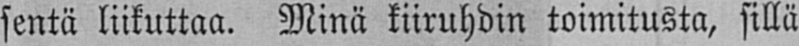sentä liikuttaa. Minä kiiruhdin toimitusta, sillä
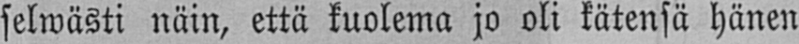selwästi näin, että kuolema jo oli kätensä hänen
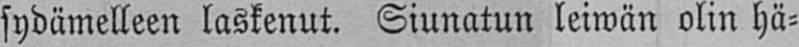sydämelleen laskenut. Siunatun leiwän olin hä-
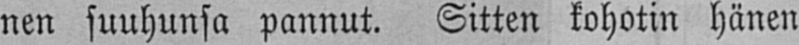nen suuhunsa pannut. Sitten kohotin hänen
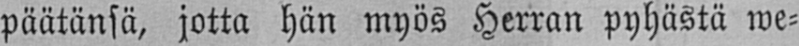päätänsä, jotta hän myös Herran pyhästä we-
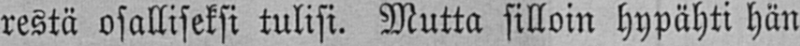restä osalliseksi tulisi. Mutta silloin hypähti hän
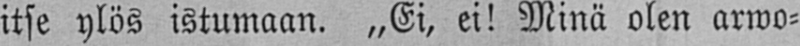itse ylös istumaan. „Ei, ei! Minä olen arwo-
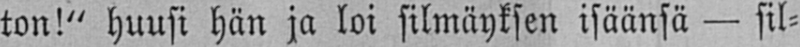ton!" huusi hän ja loi silmäyksen isäänsä — sil-
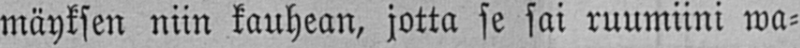mäyksen niin kauhean, jotta se sai ruumiini wa-
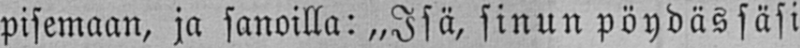pisemaan, ja sanoilla: „Isä, sinun pöydässäsi
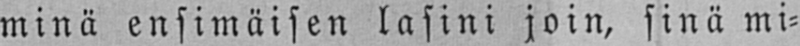minä ensimäisen lasini join, sinä mi-
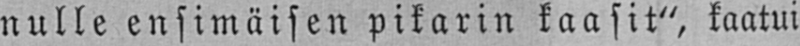nulle ensimäisen pikarin kaasit", kaatui
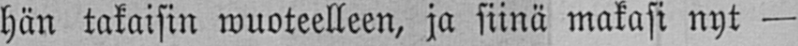hän takaisin wuoteelleen, ja siinä makasi nyt —
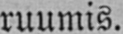ruumis.
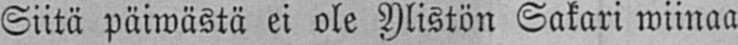Siitä päiwästä ei ole Ylistön Sakari wiinaa
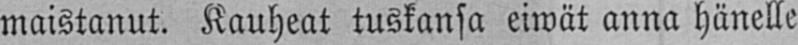maistanut. Kauheat tuskansa eiwät anna hänelle
